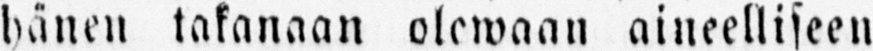hänen takanaan olewaan aineelliseen
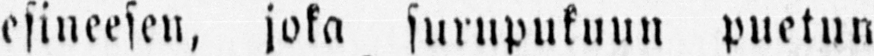esineesen, joka surupukuun puetun
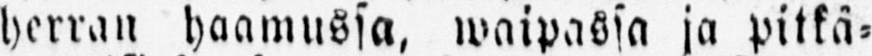herran haamussa, waipassa ja pitkä-
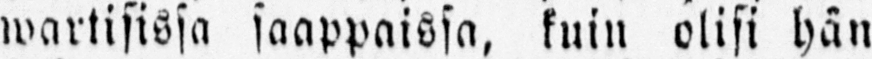wartisissa saappaissa, kuin olisi hän
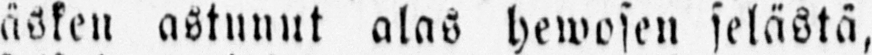äsken astunut alas hewosen selästä,
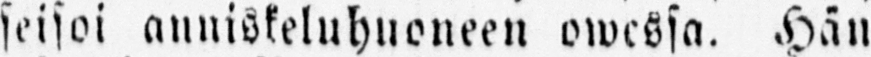seisoi anniskeluhuoneen owessa. Hän
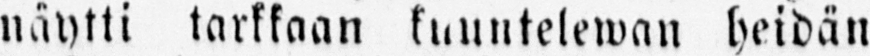näytti tarkkaan kuuntelewan heidän
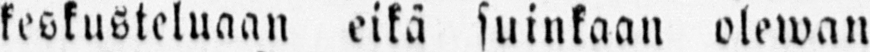keskusteluaan eikä suinkaan olewan
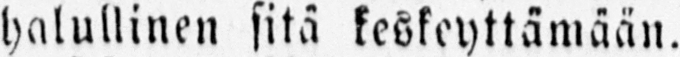halullinen sitä keskeyttämään.
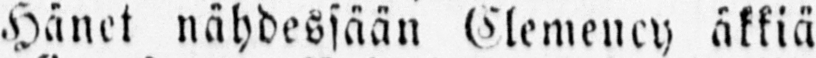Hänet nähdessään Clemency äkkiä
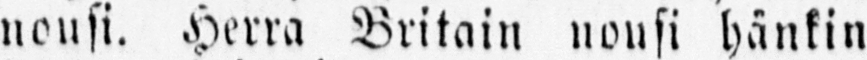nousi. Herra Britain nousi hänkin
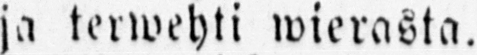ja terwehti wierasta.
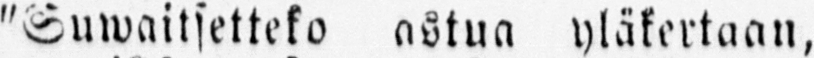"Suwaitsetteko astua yläkertaan,
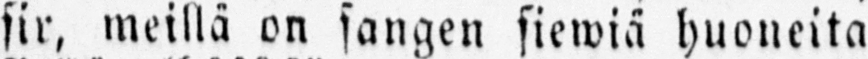sir, meillä on sangen siewiä huoneita
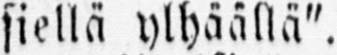siellä ylhäällä".
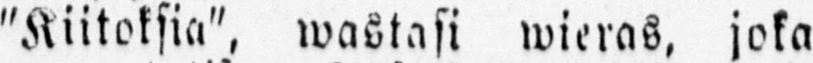"Kiitoksia", wastasi wieras, joka
